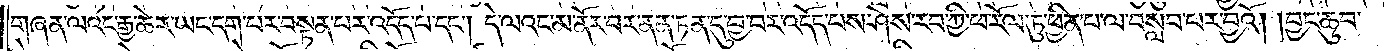གཞན་ལའང་རྒྱ་ཆེར་ཡང་དག་པར་བསྟན་པར་འདོད་པ་དང༌། དེ་ལའང་མ་ནོར་བར་ནན་ཏན་དུ་བྱ་བར་འདོད་པས་ཤེས་རབ་ཀྱི་ཕ་རོལ་ཏུ་ཕྱིན་པ་ལ་བསླབ་པར་བྱའོ། །བྱང་ཆུབ་
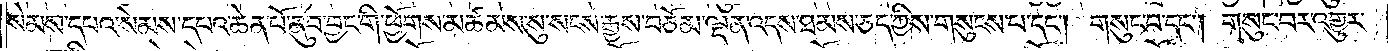སེམས་དཔའ་སེམས་དཔའ་ཆེན་པོ་ནུབ་བྱང་གི་ཕྱོགས་མཚམས་སུ་སངས་རྒྱས་བཅོམ་ལྡན་འདས་ཐམས་ཅད་ཀྱིས་གསུངས་པ་དང༌། གསུང་བ་དང༌། གསུང་བར་འགྱུར་
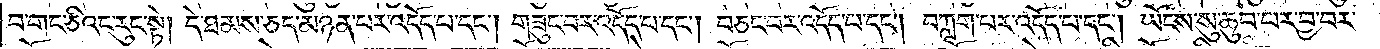བ་གང་ཅིའང་རུང་སྟེ། དེ་ཐམས་ཅད་མཉན་པར་འདོད་པ་དང༌། གཟུང་བར་འདོད་པ་དང༌། བཅང་བར་འདོད་པ་དང༌། བཀླག་པར་འདོད་པ་དང༌། ཡོངས་སུ་ཆུབ་པར་བྱ་བར་
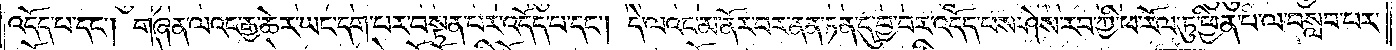འདོད་པ་དང༌། གཞན་ལའང་རྒྱ་ཆེར་ཡང་དག་པར་བསྟན་པར་འདོད་པ་དང༌། དེ་ལའང་མ་ནོར་བར་ནན་ཏན་དུ་བྱ་བར་འདོད་པས་ཤེས་རབ་ཀྱི་ཕ་རོལ་ཏུ་ཕྱིན་པ་ལ་བསླབ་པར་
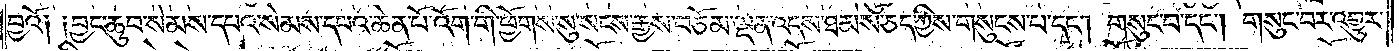བྱའོ༑ ༑བྱང་ཆུབ་སེམས་དཔའ་སེམས་དཔའ་ཆེན་པོ་འོག་གི་ཕྱོགས་སུ་སངས་རྒྱས་བཅོམ་ལྡན་འདས་ཐམས་ཅད་ཀྱིས་གསུངས་པ་དང༌། གསུང་བ་དང༌། གསུང་བར་འགྱུར་
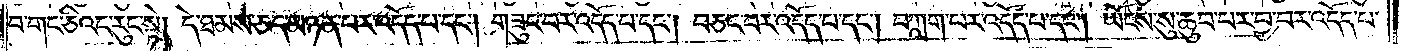བ་གང་ཅིའང་རུང་སྟེ། དེ་ཐམས་ཅད་མཉན་པར་འདོད་པ་དང༌། གཟུང་བར་འདོད་པ་དང༌། བཅང་བར་འདོད་པ་དང༌། བཀླག་པར་འདོད་པ་དང༌། ཡོངས་སུ་ཆུབ་པར་བྱ་བར་འདོད་པ་
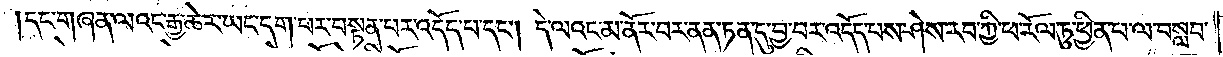དང་གཞན་ལའང་རྒྱ་ཆེར་ཡང་དག་པར་བསྟན་པར་འདོད་པ་དང༌། དེ་ལའང་མ་ནོར་བར་ནན་ཏན་དུ་བྱ་བར་འདོད་པས་ཤེས་རབ་ཀྱི་ཕ་རོལ་ཏུ་ཕྱིན་པ་ལ་བསླབ་
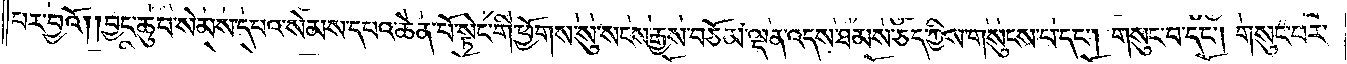པར་བྱའོ། །བྱང་ཆུབ་སེམས་དཔའ་སེམས་དཔའ་ཆེན་པོ་སྟེང་གི་ཕྱོགས་སུ་སངས་རྒྱས་བཅོམ་ལྡན་འདས་ཐམས་ཅད་ཀྱིས་གསུངས་པ་དང༌། གསུང་བ་དང༌། གསུང་བར་
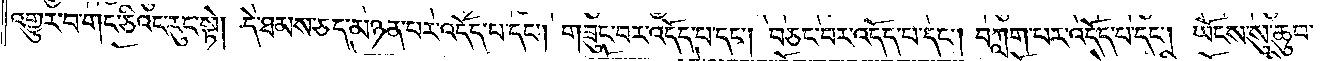འགྱུར་བ་གང་ཅིའང་རུང་སྟེ། དེ་ཐམས་ཅད་མཉན་པར་འདོད་པ་དང༌། གཟུང་བར་འདོད་པ་དང༌། བཅང་བར་འདོད་པ་དང༌། བཀླག་པར་འདོད་པ་དང༌། ཡོངས་སུ་ཆུབ་
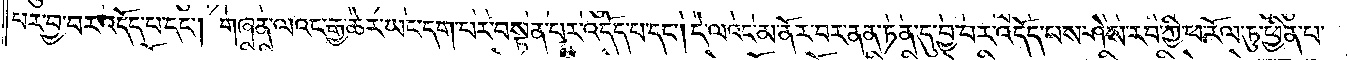པར་བྱ་བར་འདོད་པ་དང༌། གཞན་ལའང་རྒྱ་ཆེར་ཡང་དག་པར་བསྟན་པར་འདོད་པ་དང༌། དེ་ལའང་མ་ནོར་བར་ནན་ཏན་དུ་བྱ་བར་འདོད་པས་ཤེས་རབ་ཀྱི་ཕ་རོལ་ཏུ་ཕྱིན་པ་
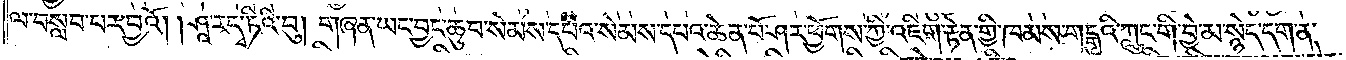ལ་བསླབ་པར་བྱའོ། །ཤཱ་ར་དྭ་ཏིའི་བུ། གཞན་ཡང་བྱང་ཆུབ་སེམས་དཔའ་སེམས་དཔའ་ཆེན་པོ་ཤར་ཕྱོགས་ཀྱི་འཇིག་རྟེན་གྱི་ཁམས་གངྒཱའི་ཀླུང་གི་བྱེ་མ་སྙེད་དག་ན་
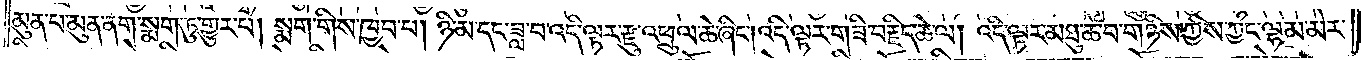མུན་པ་མུན་ནག་སྨག་ཏུ་གྱུར་པ། སྨག་གིས་ཁྱབ་པ། ཉི་མ་དང་ཟླ་བ་འདི་ལྟར་རྫུ་འཕྲུལ་ཆེ་ཞིང༌། འདི་ལྟར་གཟི་བརྗིད་ཆེ་ལ། འདི་ལྟར་མཐུ་ཆེ་བ་གཉིས་ཀྱིས་ཀྱང་ལྷམ་མེར་
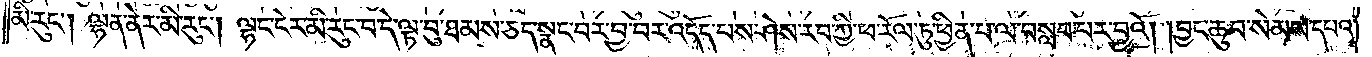མི་རུང༌། ལྷན་ནེར་མི་རུང༌། ལྷང་ངེར་མི་རུང་བ་དེ་ལྟ་བུ་ཐམས་ཅད་སྣང་བར་བྱ་བར་འདོད་པས་ཤེས་རབ་ཀྱི་ཕ་རོལ་ཏུ་ཕྱིན་པ་ལ་བསླབ་པར་བྱའོ། །བྱང་ཆུབ་སེམས་དཔའ་
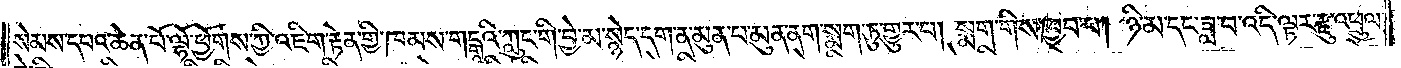སེམས་དཔའ་ཆེན་པོ་ལྷོ་ཕྱོགས་ཀྱི་འཇིག་རྟེན་གྱི་ཁམས་གངྒཱའི་ཀླུང་གི་བྱེ་མ་སྙེད་དག་ན་མུན་པ་མུན་ནག་སྨག་ཏུ་གྱུར་པ། སྨག་གིས་ཁྱབ་པ། ཉི་མ་དང་ཟླ་བ་འདི་ལྟར་རྫུ་འཕྲུལ་
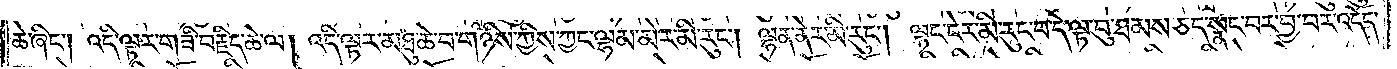ཆེ་ཞིང༌། འདི་ལྟར་གཟི་བརྗིད་ཆེ་ལ། འདི་ལྟར་མཐུ་ཆེ་བ་གཉིས་ཀྱིས་ཀྱང་ལྷམ་མེར་མི་རུང༌། ལྷན་ནེར་མི་རུང༌། ལྷང་ངེར་མི་རུང་བ་དེ་ལྟ་བུ་ཐམས་ཅད་སྣང་བར་བྱ་བར་འདོད་
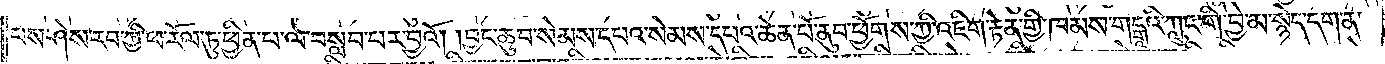པས་ཤེས་རབ་ཀྱི་ཕ་རོལ་ཏུ་ཕྱིན་པ་ལ་བསླབ་པར་བྱའོ། །བྱང་ཆུབ་སེམས་དཔའ་སེམས་དཔའ་ཆེན་པོ་ནུབ་ཕྱོགས་ཀྱི་འཇིག་རྟེན་གྱི་ཁམས་གངྒཱའི་ཀླུང་གི་བྱེ་མ་སྙེད་དག་ན་
